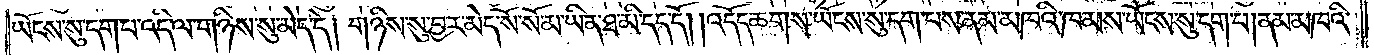ཡོངས་སུ་དག་པ་འདི་ལ་གཉིས་སུ་མེད་དེ། གཉིས་སུ་བྱར་མེད་སོ་སོ་མ་ཡིན་ཐ་མི་དད་དོ། །འདོད་ཆགས་ཡོངས་སུ་དག་པས་ནམ་མཁའི་ཁམས་ཡོངས་སུ་དག་པ། ནམ་མཁའི་
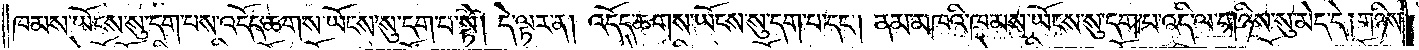ཁམས་ཡོངས་སུ་དག་པས་འདོད་ཆགས་ཡོངས་སུ་དག་པ་སྟེ། དེ་ལྟར་ན། འདོད་ཆགས་ཡོངས་སུ་དག་པ་དང༌། ནམ་མཁའི་ཁམས་ཡོངས་སུ་དག་པ་འདི་ལ་གཉིས་སུ་མེད་དེ། གཉིས་
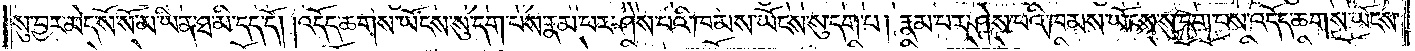སུ་བྱར་མེད་སོ་སོ་མ་ཡིན་ཐ་མི་དད་དོ། །འདོད་ཆགས་ཡོངས་སུ་དག་པས་རྣམ་པར་ཤེས་པའི་ཁམས་ཡོངས་སུ་དག་པ། རྣམ་པར་ཤེས་པའི་ཁམས་ཡོངས་སུ་དག་པས་འདོད་ཆགས་ཡོངས་
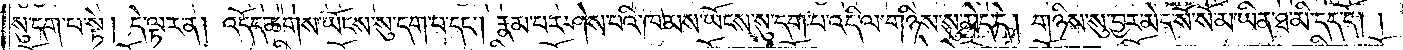སུ་དག་པ་སྟེ། དེ་ལྟར་ན། འདོད་ཆགས་ཡོངས་སུ་དག་པ་དང༌། རྣམ་པར་ཤེས་པའི་ཁམས་ཡོངས་སུ་དག་པ་འདི་ལ་གཉིས་སུ་མེད་དེ། གཉིས་སུ་བྱར་མེད་སོ་སོ་མ་ཡིན་ཐ་མི་དད་དོ། །
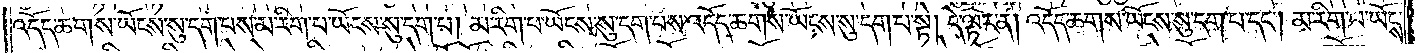འདོད་ཆགས་ཡོངས་སུ་དག་པས་མ་རིག་པ་ཡོངས་སུ་དག་པ། མ་རིག་པ་ཡོངས་སུ་དག་པས་འདོད་ཆགས་ཡོངས་སུ་དག་པ་སྟེ། དེ་ལྟར་ན། འདོད་ཆགས་ཡོངས་སུ་དག་པ་དང༌། མ་རིག་པ་ཡོངས་
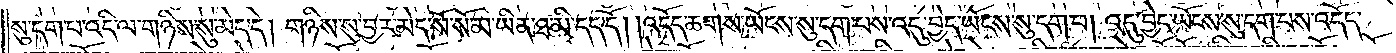སུ་དག་པ་འདི་ལ་གཉིས་སུ་མེད་དེ། གཉིས་སུ་བྱར་མེད་སོ་སོ་མ་ཡིན་ཐ་མི་དད་དོ། །འདོད་ཆགས་ཡོངས་སུ་དག་པས་འདུ་བྱེད་ཡོངས་སུ་དག་པ། འདུ་བྱེད་ཡོངས་སུ་དག་པས་འདོད་
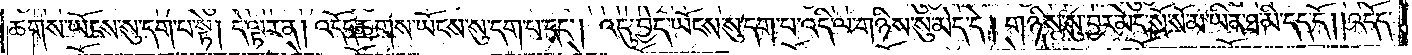ཆགས་ཡོངས་སུ་དག་པ་སྟེ། དེ་ལྟར་ན། འདོད་ཆགས་ཡོངས་སུ་དག་པ་དང༌། འདུ་བྱེད་ཡོངས་སུ་དག་པ་འདི་ལ་གཉིས་སུ་མེད་དེ། གཉིས་སུ་བྱར་མེད་སོ་སོ་མ་ཡིན་ཐ་མི་དད་དོ། །འདོད་
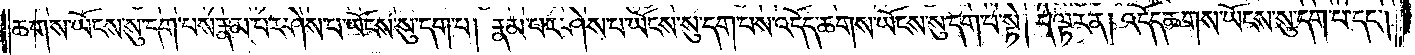ཆགས་ཡོངས་སུ་དག་པས་རྣམ་པར་ཤེས་པ་ཡོངས་སུ་དག་པ། རྣམ་པར་ཤེས་པ་ཡོངས་སུ་དག་པས་འདོད་ཆགས་ཡོངས་སུ་དག་པ་སྟེ། དེ་ལྟར་ན། འདོད་ཆགས་ཡོངས་སུ་དག་པ་དང༌།
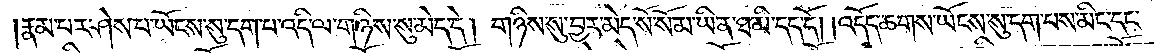རྣམ་པར་ཤེས་པ་ཡོངས་སུ་དག་པ་འདི་ལ་གཉིས་སུ་མེད་དེ། གཉིས་སུ་བྱར་མེད་སོ་སོ་མ་ཡིན་ཐ་མི་དད་དོ། །འདོད་ཆགས་ཡོངས་སུ་དག་པས་མིང་དང་
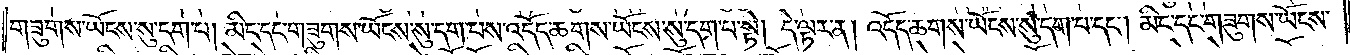གཟུགས་ཡོངས་སུ་དག་པ། མིང་དང་གཟུགས་ཡོངས་སུ་དག་པས་འདོད་ཆགས་ཡོངས་སུ་དག་པ་སྟེ། དེ་ལྟར་ན། འདོད་ཆགས་ཡོངས་སུ་དག་པ་དང༌། མིང་དང་གཟུགས་ཡོངས་
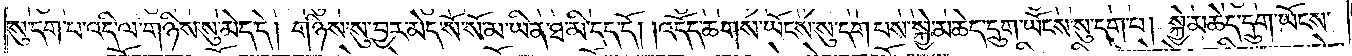སུ་དག་པ་འདི་ལ་གཉིས་སུ་མེད་དེ། གཉིས་སུ་བྱར་མེད་སོ་སོ་མ་ཡིན་ཐ་མི་དད་དོ། །འདོད་ཆགས་ཡོངས་སུ་དག་པས་སྐྱེ་མཆེད་དྲུག་ཡོངས་སུ་དག་པ། སྐྱེ་མཆེད་དྲུག་ཡོངས་
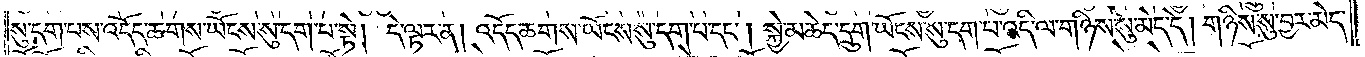སུ་དག་པས་འདོད་ཆགས་ཡོངས་སུ་དག་པ་སྟེ། དེ་ལྟར་ན། འདོད་ཆགས་ཡོངས་སུ་དག་པ་དང༌། སྐྱེ་མཆེད་དྲུག་ཡོངས་སུ་དག་པ་འདི་ལ་གཉིས་སུ་མེད་དེ། གཉིས་སུ་བྱར་མེད་
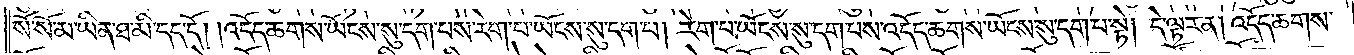སོ་སོ་མ་ཡིན་ཐ་མི་དད་དོ། །འདོད་ཆགས་ཡོངས་སུ་དག་པས་རེག་པ་ཡོངས་སུ་དག་པ། རེག་པ་ཡོངས་སུ་དག་པས་འདོད་ཆགས་ཡོངས་སུ་དག་པ་སྟེ། དེ་ལྟར་ན། འདོད་ཆགས་
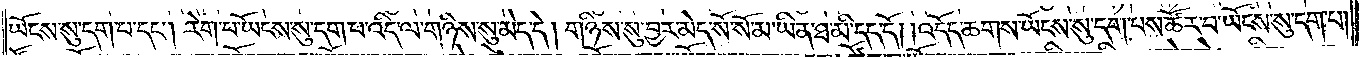ཡོངས་སུ་དག་པ་དང༌། རེག་པ་ཡོངས་སུ་དག་པ་འདི་ལ་གཉིས་སུ་མེད་དེ། གཉིས་སུ་བྱར་མེད་སོ་སོ་མ་ཡིན་ཐ་མི་དད་དོ། །འདོད་ཆགས་ཡོངས་སུ་དག་པས་ཚོར་བ་ཡོངས་སུ་དག་པ།
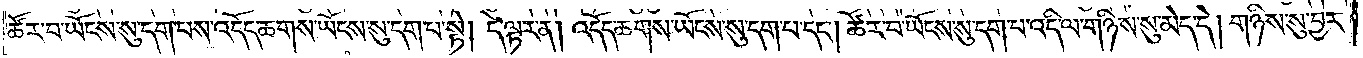ཚོར་བ་ཡོངས་སུ་དག་པས་འདོད་ཆགས་ཡོངས་སུ་དག་པ་སྟེ། དེ་ལྟར་ན། འདོད་ཆགས་ཡོངས་སུ་དག་པ་དང༌། ཚོར་བ་ཡོངས་སུ་དག་པ་འདི་ལ་གཉིས་སུ་མེད་དེ། གཉིས་སུ་བྱར་
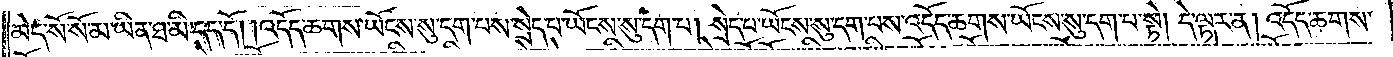མེད་སོ་སོ་མ་ཡིན་ཐ་མི་དད་དོ། །འདོད་ཆགས་ཡོངས་སུ་དག་པས་སྲེད་པ་ཡོངས་སུ་དག་པ། སྲེད་པ་ཡོངས་སུ་དག་པས་འདོད་ཆགས་ཡོངས་སུ་དག་པ་སྟེ། དེ་ལྟར་ན། འདོད་ཆགས་
